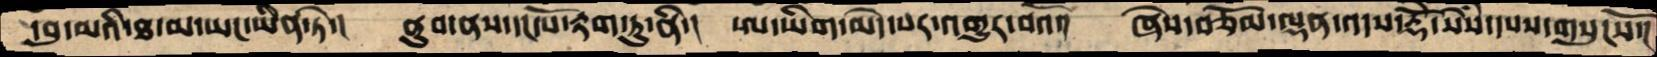དབུ་མའི་ཐ་མ་ཡང་ཡིན་ཏེ་།  ནུབ་ནས་དང་པོ་རྟག་ཏུ་ནི་།།  ཨ་ཡིག་མེད་པར་འགྱུར་བའོ་།  ཞེས་བཅོམ་ལྡན་འདས་རྡོེ་སེཾས་དཔས་གསུངསོ་།
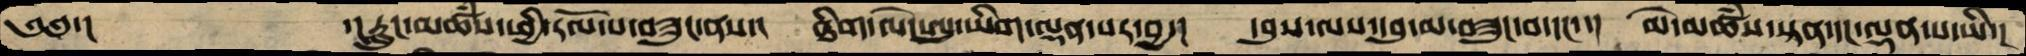༄༅་།        ་།རླུང་མཚཾས་ཕྱི་རོལ་པ་བཟུང་ནས་།  ཐིག་ལེ་ཨུ་ཡིག་ལྡན་པར་བྱ་།  དབུས་ལས་དབུ་མ་བཟུང་བ་དང་་།  མེ་མཚཾས་སྟན་དང་ལྡན་པ་ཡི་།
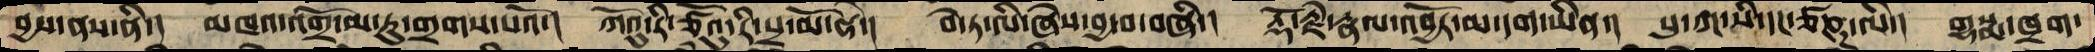བྱས་ནས་ནི་།  མཁའ་འགྲོ་མ་རུ་གྲགས་པའོ་།  ཀོའུ་རི་ཙོའུ་རི་པྲ་མོ་ཧེ་།  བེ་ཏ་ལི་ཞེས་བྱ་བ་བཞི་།  རྡོ་རྗེ་རྣལ་འབྱོར་མ་དག་ཡིན་།  པུ་ཀ་སི་དང་ཙཎྜ་ལི་།  གྷསྨ་ཁྲག་
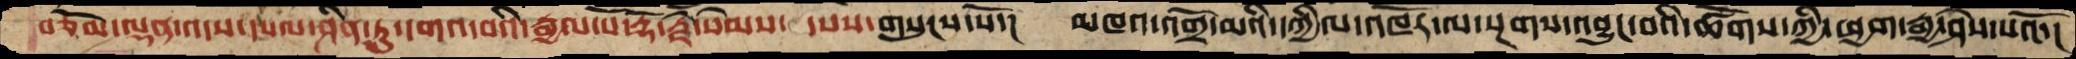བཅོམ་ལྡན་འདས་དཔལ་ཤིན་ཏུ་དགའ་བའི་རྒྱལ་པོ་རྡོ་རྗེ་སེམས་  དཔས་གསུངས་སོ་།  མཁའ་འགྲོ་མའི་དཀྱིལ་འཁོར་ལ་སྔགས་འབྱུང་བའི་ཚོགས་ཀྱི་ཕྱག་རྒྱ་ཤེས་པའོ་།
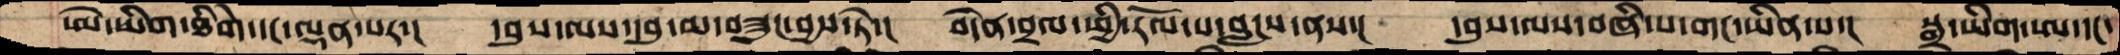ཨེ་ཡིག་ཐིགེ་དང་ལྡན་པར་།  དབུས་ལས་དབུ་མ་བཟུང་བྱས་ཏེ་།  བདེན་བྲལ་ཕྱི་རོལ་པ་བླངས་ནས་།  དབུས་ལས་བཞི་པ་གང་ཡིན་པ་།  སྒྲ་ཡིག་ཨ་དང་
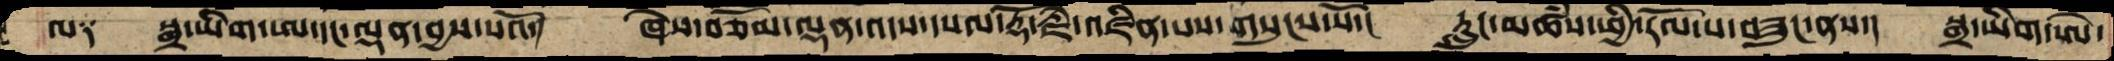ལ༑  སྒྲ་ཡིག་ཨ་དང་ལྡན་བྱས་པའོ་།  ཞེས་བཅོམ་ལྡན་འདས་དཔལ་རྡོ་རྗེ་འཛིན་པས་གསུངས་སོ་།  རླུང་མཚཾས་ཕྱི་རོལ་པ་བཟུང་ནས་།  སྒྲ་ཡིག་ཨེ་
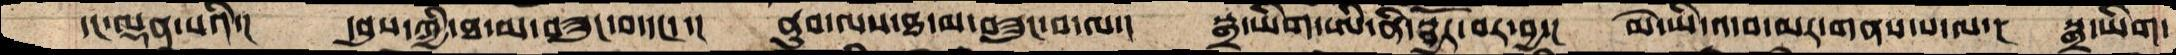དང་ལྡན་པའི་།  དབུས་ཀྱི་ཐ་མ་བཟུང་བ་དང་་།  ནུབ་ལས་ཐ་མ་བཟུང་བ་ལ་།  སྒྲ་ཡིག་ཨི་ནི་སྦྱོར་བར་བྱ་།  མེ་ཡི་འདབ་མར་གནས་པ་ལ་།  སྒྲ་ཡིག་
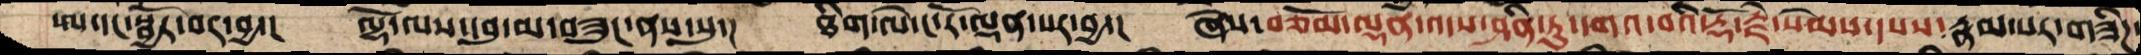ཨ་དང་སྦྱོར་བར་བྱ་།  ལྷོ་ལས་དབུ་མ་བཟུང་ནས་སུ་།   ཐིག་ལེ་ང་རོ་ལྡན་པར་བྱ་།   ཞེས་བཅོམ་ལྡན་འདས་ཤིན་ཏུ་དགའ་བའི་རྡོ་རྗེ་སེམས་དཔས་རྣམ་པར་གཟིཌ་
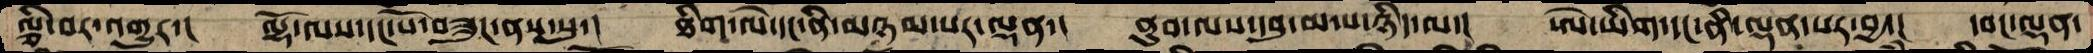ལྕི་བར་འགྱུར་།  ལྷོ་ལས་དང་པོ་བཟུང་ནས་སུ་།  ཐིག་ལེ་དང་ནི་མཉམ་པར་ལྡན་།  ནུབ་ལས་དབུ་མ་པ་ཉིད་ལ་།  ཨེ་ཡིག་དང་ནི་ལྡན་པར་བྱ་།  དབང་ལྡན་
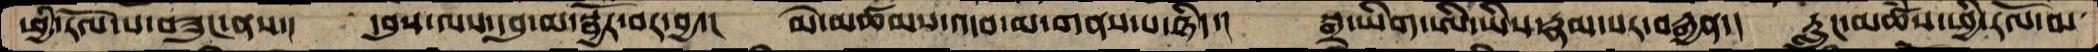ཕྱི་རོལ་པ་བཟུང་ནས་།  དབུས་ལས་དབུ་མ་སྦྱོར་བར་བྱ་།  མེ་མཚམས་འདབ་མ་གནས་པ་ཉིད་།  སྒྲ་ཡིག་ཨི་ཡིས་རྣམ་པར་བརྒྱན་།   རླུང་མཚཾས་ཕྱི་རོལ་མ་
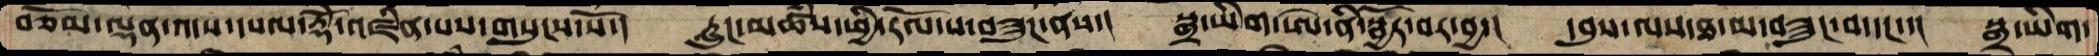བཅོམ་ལྡན་འདས་དཔལ་རྡོེ་འཛིན་པས་གསུངས་སོ་།  རླུང་མཚཾས་ཕྱི་རོལ་པ་བཟུང་ནས་།  སྒྲ་ཡིག་ཨེ་ནི་སྦྱོར་བར་བྱ་།  དབུས་ལས་ཐ་མ་བཟུང་བ་དང་་།  སྒྲ་ཡིག་
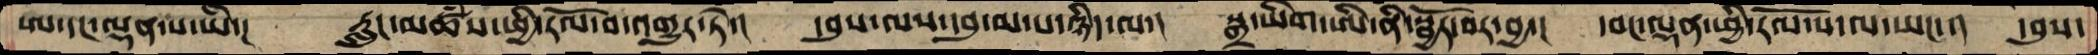ཨ་དང་ལྡན་པ་ཡི་།   རླུང་མཚཾས་ཕྱི་རོལ་བ་འགྱུར་ཏེ་།  དབུས་ལས་དབུ་མ་པ་ཉིད་ལ་།  སྒྲ་ཡིག་ཨི་ནི་སྦྱོར་བར་བྱ་།  དབང་ལྡན་ཕྱི་རོལ་པ་ལ་ཡང་་།  དབུས་
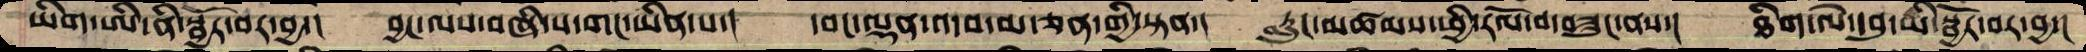ཡིག་ཨི་ནི་སྦྱོར་བར་བྱ་།  བྱང་ལས་བཞི་པ་གང་ཡིན་པ་།  དབང་ལྡན་འདབ་མ་ཅན་གྱི་སྟན་།  རླུང་མཚམས་ཕྱི་རོལ་བ་བཟུང་ནས་།  ཐིག་ལེ་དབུ་མི་སྦྱོར་བར་བྱ་།
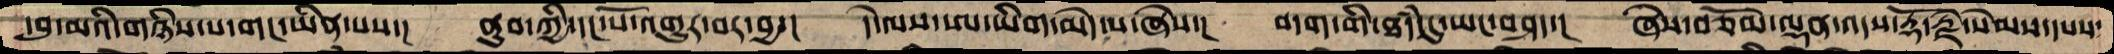དབུ་མའི་གཉིས་པ་གང་ཡིན་པས་།  ནུབ་ཀྱི་དང་པོ་འགྱུར་བར་བྱ་།  དེ་ལས་ཨ་ཡིག་མེད་པ་ཞེས་།  བདག་གི་ཐཾད་དུ་ཡང་བཤད་།  ཞེས་བཅོམ་ལྡན་འདས་རྡོ་རྗེ་སེམས་དཔས་
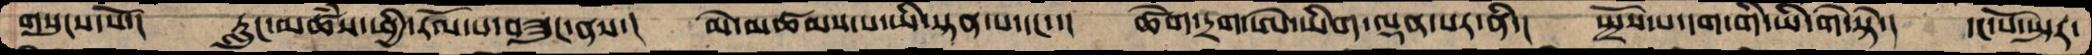གསུངས་སོ་།  རླུང་མཚཾས་ཕྱི་རོལ་པ་བཟུང་ནས་།  མེ་མཚམས་པ་ཡི་སྟན་པ་དང་་།  ཚེག་དྲག་ཨེ་ཡིག་ལྡན་པར་ནི་།  སྤྲོས་པ་དག་གི་ཡི་གེ་སྟེ་།  དང་པོ་སྤར་
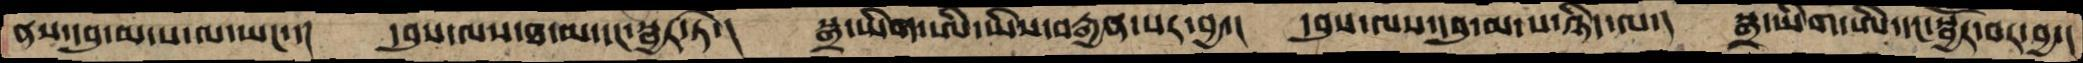ནས་དབུ་མ་པ་ལ་ཡང་་།  དབུས་ལས་ཐ་མ་དང་སྦྱར་ཏེ་།  སྒྲ་ཡིག་ཨི་ཡིས་བརྒྱན་པར་བྱ་།  དབུས་ལས་དབུ་མ་པ་ཉིད་ལ་།  སྒྲ་ཡིག་ཨི་དང་སྦྱོར་བར་བྱ་།
